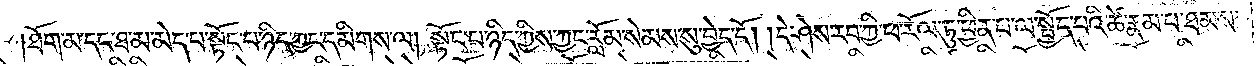ཐོག་མ་དང་ཐ་མ་མེད་པ་སྟོང་པ་ཉིད་ཀྱང་དམིགས་ལ། སྟོང་པ་ཉིད་ཀྱིས་ཀྱང་རློམ་སེམས་སུ་བྱེད་དོ། །དེ་ཤེས་རབ་ཀྱི་ཕ་རོལ་ཏུ་ཕྱིན་པ་ལ་སྤྱོད་པའི་ཚེ་རྣམ་པ་ཐམས་
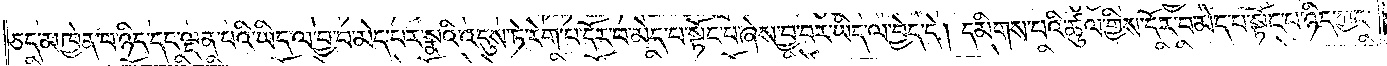ཅད་མཁྱེན་པ་ཉིད་དང་ལྡན་པའི་ཡིད་ལ་བྱ་བ་མེད་པར་སྣའི་འདུས་ཏེ་རེག་པ་དོར་བ་མེད་པ་སྟོང་པ་ཞེས་བྱ་བར་ཡིད་ལ་བྱེད་དེ། དམིགས་པའི་ཚུལ་གྱིས་དོར་བ་མེད་པ་སྟོང་པ་ཉིད་ཀྱང་
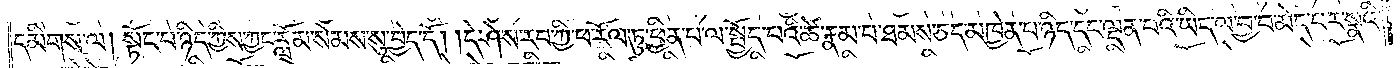དམིགས་ལ། སྟོང་པ་ཉིད་ཀྱིས་ཀྱང་རློམ་སེམས་སུ་བྱེད་དོ། །དེ་ཤེས་རབ་ཀྱི་ཕ་རོལ་ཏུ་ཕྱིན་པ་ལ་སྤྱོད་པའི་ཚེ་རྣམ་པ་ཐམས་ཅད་མཁྱེན་པ་ཉིད་དང་ལྡན་པའི་ཡིད་ལ་བྱ་བ་མེད་པར་སྣའི་
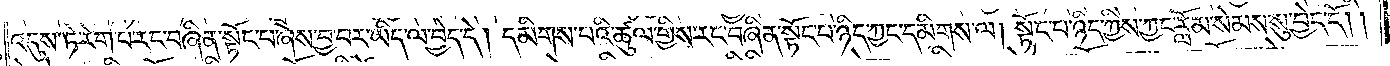འདུས་ཏེ་རེག་པ་རང་བཞིན་སྟོང་པ་ཞེས་བྱ་བར་ཡིད་ལ་བྱེད་དེ། དམིགས་པའི་ཚུལ་གྱིས་རང་བཞིན་སྟོང་པ་ཉིད་ཀྱང་དམིགས་ལ། སྟོང་པ་ཉིད་ཀྱིས་ཀྱང་རློམ་སེམས་སུ་བྱེད་དོ༎
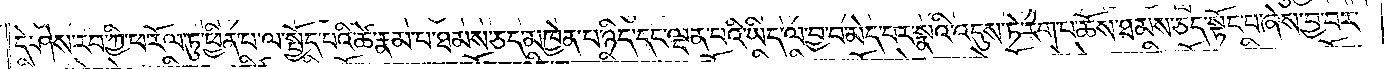དེ་ཤེས་རབ་ཀྱི་ཕ་རོལ་ཏུ་ཕྱིན་པ་ལ་སྤྱོད་པའི་ཚེ་རྣམ་པ་ཐམས་ཅད་མཁྱེན་པ་ཉིད་དང་ལྡན་པའི་ཡིད་ལ་བྱ་བ་མེད་པར་སྣའི་འདུས་ཏེ་རེག་པ་ཆོས་ཐམས་ཅད་སྟོང་པ་ཞེས་བྱ་བར་
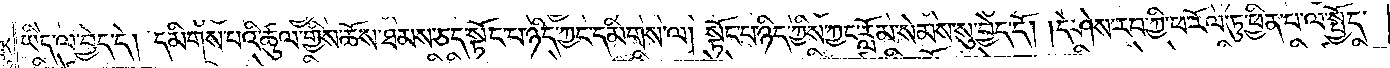ཡིད་ལ་བྱེད་དེ། དམིགས་པའི་ཚུལ་གྱིས་ཆོས་ཐམས་ཅད་སྟོང་པ་ཉིད་ཀྱང་དམིགས་ལ། སྟོང་པ་ཉིད་ཀྱིས་ཀྱང་རློམ་སེམས་སུ་བྱེད་དོ། །དེ་ཤེས་རབ་ཀྱི་ཕ་རོལ་ཏུ་ཕྱིན་པ་ལ་སྤྱོད་
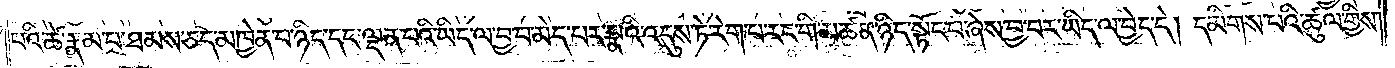པའི་ཚེ་རྣམ་པ་ཐམས་ཅད་མཁྱེན་པ་ཉིད་དང་ལྡན་པའི་ཡིད་ལ་བྱ་བ་མེད་པར་སྣའི་འདུས་ཏེ་རེག་པ་རང་གི་མཚན་ཉིད་སྟོང་པ་ཞེས་བྱ་བར་ཡིད་ལ་བྱེད་དེ། དམིགས་པའི་ཚུལ་གྱིས་
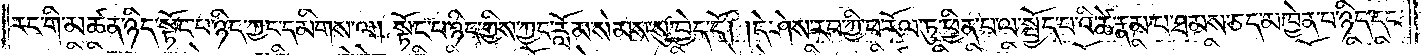རང་གི་མཚན་ཉིད་སྟོང་པ་ཉིད་ཀྱང་དམིགས་ལ། སྟོང་པ་ཉིད་ཀྱིས་ཀྱང་རློམ་སེམས་སུ་བྱེད་དོ། །དེ་ཤེས་རབ་ཀྱི་ཕ་རོལ་ཏུ་ཕྱིན་པ་ལ་སྤྱོད་པའི་ཚེ་རྣམ་པ་ཐམས་ཅད་མཁྱེན་པ་ཉིད་དང་
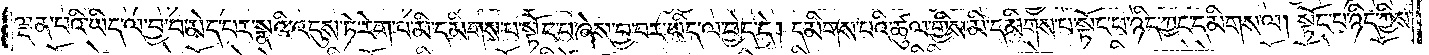ལྡན་པའི་ཡིད་ལ་བྱ་བ་མེད་པར་སྣའི་འདུས་ཏེ་རེག་པ་མི་དམིགས་པ་སྟོང་པ་ཞེས་བྱ་བར་ཡིད་ལ་བྱེད་དེ། དམིགས་པའི་ཚུལ་གྱིས་མི་དམིགས་པ་སྟོང་པ་ཉིད་ཀྱང་དམིགས་ལ། སྟོང་པ་ཉིད་ཀྱིས་
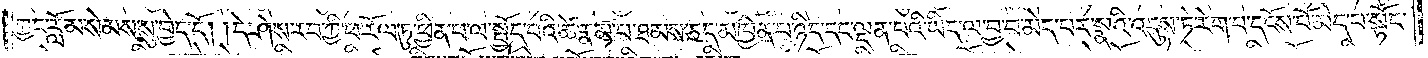ཀྱང་རློམ་སེམས་སུ་བྱེད་དོ། །དེ་ཤེས་རབ་ཀྱི་ཕ་རོལ་ཏུ་ཕྱིན་པ་ལ་སྤྱོད་པའི་ཚེ་རྣམ་པ་ཐམས་ཅད་མཁྱེན་པ་ཉིད་དང་ལྡན་པའི་ཡིད་ལ་བྱ་བ་མེད་པར་སྣའི་འདུས་ཏེ་རེག་པ་དངོས་པོ་མེད་པ་སྟོང་
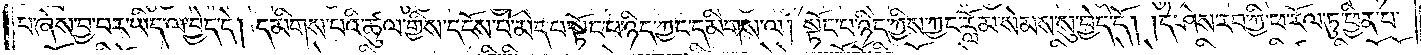པ་ཞེས་བྱ་བར་ཡིད་ལ་བྱེད་དེ། དམིགས་པའི་ཚུལ་གྱིས་དངོས་པོ་མེད་པ་སྟོང་པ་ཉིད་ཀྱང་དམིགས་ལ། སྟོང་པ་ཉིད་ཀྱིས་ཀྱང་རློམ་སེམས་སུ་བྱེད་དོ། །དེ་ཤེས་རབ་ཀྱི་ཕ་རོལ་ཏུ་ཕྱིན་པ་
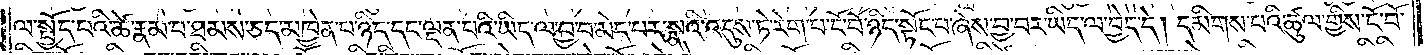ལ་སྤྱོད་པའི་ཚེ་རྣམ་པ་ཐམས་ཅད་མཁྱེན་པ་ཉིད་དང་ལྡན་པའི་ཡིད་ལ་བྱ་བ་མེད་པར་སྣའི་འདུས་ཏེ་རེག་པ་ངོ་བོ་ཉིད་སྟོང་པ་ཞེས་བྱ་བར་ཡིད་ལ་བྱེད་དེ། དམིགས་པའི་ཚུལ་གྱིས་ངོ་བོ་
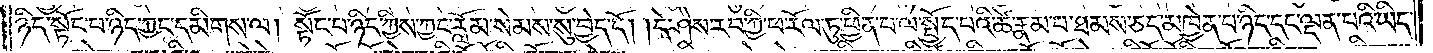ཉིད་སྟོང་པ་ཉིད་ཀྱང་དམིགས་ལ། སྟོང་པ་ཉིད་ཀྱིས་ཀྱང་རློམ་སེམས་སུ་བྱེད་དོ། །དེ་ཤེས་རབ་ཀྱི་ཕ་རོལ་ཏུ་ཕྱིན་པ་ལ་སྤྱོད་པའི་ཚེ་རྣམ་པ་ཐམས་ཅད་མཁྱེན་པ་ཉིད་དང་ལྡན་པའི་ཡིད་
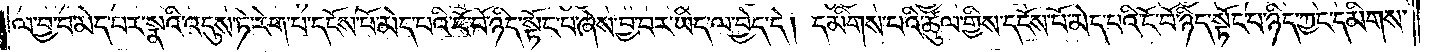ལ་བྱ་བ་མེད་པར་སྣའི་འདུས་ཏེ་རེག་པ་དངོས་པོ་མེད་པའི་ངོ་བོ་ཉིད་སྟོང་པ་ཞེས་བྱ་བར་ཡིད་ལ་བྱེད་དེ། དམིགས་པའི་ཚུལ་གྱིས་དངོས་པོ་མེད་པའི་ངོ་བོ་ཉིད་སྟོང་པ་ཉིད་ཀྱང་དམིགས་
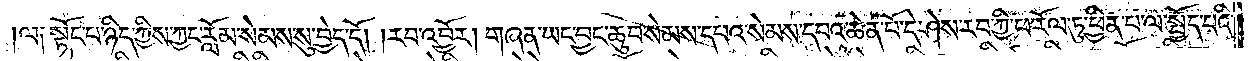ལ༑ སྟོང་པ་ཉིད་ཀྱིས་ཀྱང་རློམ་སེམས་སུ་བྱེད་དོ། །རབ་འབྱོར། གཞན་ཡང་བྱང་ཆུབ་སེམས་དཔའ་སེམས་དཔའ་ཆེན་པོ་དེ་ཤེས་རབ་ཀྱི་ཕ་རོལ་ཏུ་ཕྱིན་པ་ལ་སྤྱོད་པའི་
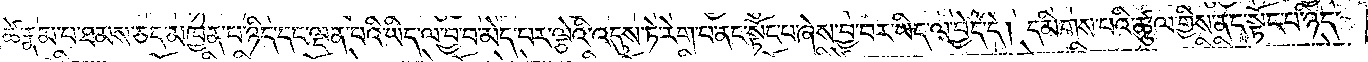ཚེ་རྣམ་པ་ཐམས་ཅད་མཁྱེན་པ་ཉིད་དང་ལྡན་པའི་ཡིད་ལ་བྱ་བ་མེད་པར་ལྕེའི་འདུས་ཏེ་རེག་པ་ནང་སྟོང་པ་ཞེས་བྱ་བར་ཡིད་ལ་བྱེད་དེ། དམིགས་པའི་ཚུལ་གྱིས་ནང་སྟོང་པ་ཉིད་
